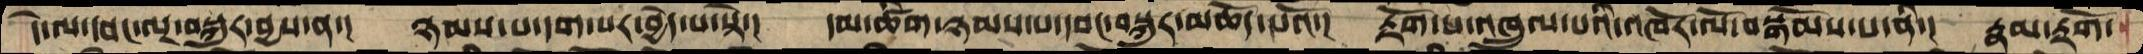དེ་ལ་དབང་ལྔ་བསྐུར་བྱས་ན་།  ཉམས་པ་དག་པར་བྱེད་པ་སྟེ་།  དམ་ཚིག་ཉམས་པ་དབང་བསྐུར་མཆོད་པའོ་།  རྟོག་པ་འཁྲུལ་པའི་འཁོར་ལོ་བསྒོམས་པ་ནི་།  རྣམ་རྟོག་
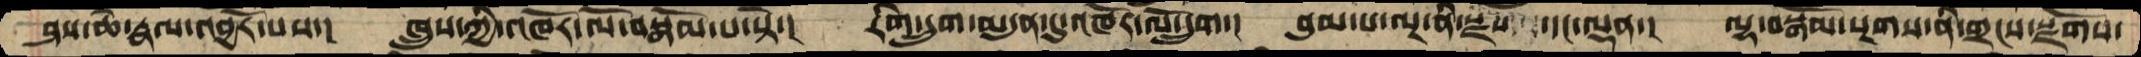ཤས་ཆེ་རྣལ་འབྱོར་པས་།  ཁྲུས་ཀྱི་འཁོར་ལོ་བསྒོམ་པ་སྟེ་།  རིག་དྲུག་མདུན་དུ་འཁོར་ལོ་དྲུག་།  བུམ་པ་ལྔ་ནི་སྫས  ་དང་ལྡན་།  ལྷ་བསྒོམ་སྔགས་ནི་གྲངས་སྫོགས་
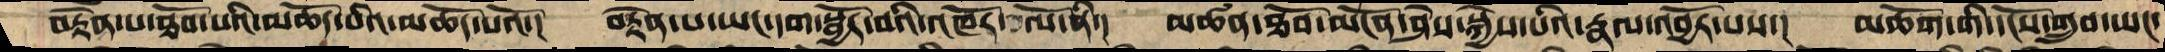བརྟེན་པ་ཐོབ་པའི་མཆོད་པའི་མཆོད་པའོ་།  བརྟེན་པ་ཡང་དག་སྦྱོར་བའི་འཁོར་ ལོ་ནི་།  མཚན་ཐོབ་མངོན་ཤེས་སྐྱེས་པའི་རྣལ་འབྱོར་པས་།  མཆོག་གི་དངོས་གྲུབ་ཡང་
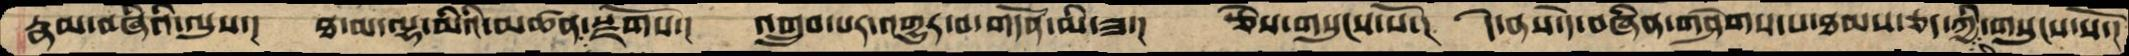རྣམ་བཞིའི་ལུས་།  ཐ་མ་ལྷ་མིའི་མཚན་སྫོགས་།  འགྲུབ་པར་འགྱུར་བ་གདོན་མི་ཟ་།  ཅེས་གསུངས་སོ་།  དེ་ནས་དེ་བཞིན་གཤེགས་པ་ཐམས་ཅད་ཀྱི་གསུངས་སོ་།
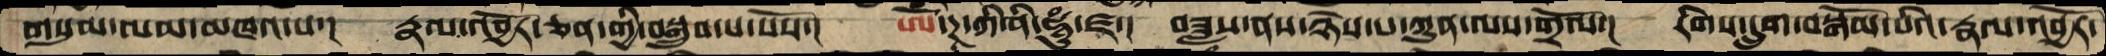གསུམ་ལམ་མཁའ་པ་།  རྣལ་འབྱོར་ཅན་གྱི་བསྒྲུབ་པ་པོས་།  ཨོཾ་ཌཱ་ཀི་ནི་ཧཱུཾ་ཛ་།  བཟླས་ནས་ཉེས་པ་ཀུན་ལས་གྲོལ་།  རིགས་དྲུག་བསྒོམ་པའི་རྣལ་འབྱོར་
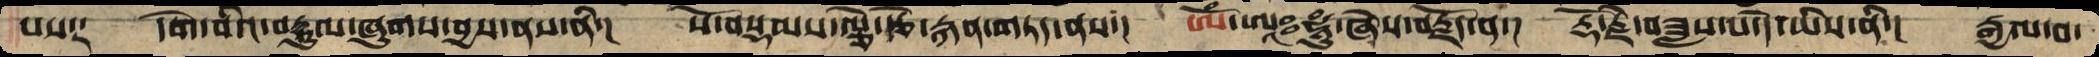པས༑  དགེ་བའི་བརྡུལ་ཞུགས་བྱས་ནས་ནི་།  སོ་བསྡམས་ལྕེ་རྩེ་རྐན་གཏད་ནས་།  ཨོཾ་ཨཱཿཧཱུཾ་ཞེས་བརྗོད་ན་།  རྡོ་རྗེ་བཟླས་པ་དེ་ཡིས་ནི་།  རྒྱལ་བ་
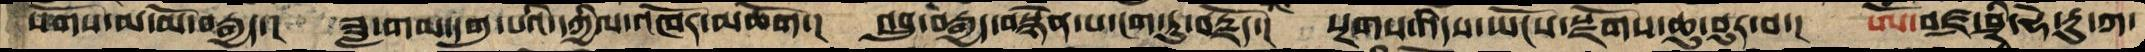སོགས་མ་མོ་བརྒྱད་།  ཟླ་གམ་དགུ་པའི་དཀྱིལ་འཁོར་མཆོག་།  འབྲུ་བརྒྱད་བསྙེན་པ་ངག་ཏུ་བརྗོད་།  སྔགས་འདིས་ཡོངས་སྫོགས་ཆུ་བུར་བ་།  ཨོཾ་བཛྲ་ཤྲི་ཧེ་རུ་ཀ་
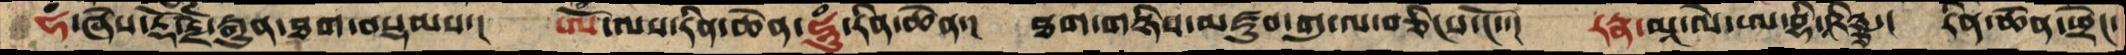ཧཾ་ཞེས་རྡོ་རྗེ་རྒྱུན་ཐག་བསྡམས་།  ཨོཾ་ལས་རིན་ཆེན་ཧཱུཾ་རིན་ཆེན་།  ཐག་གཉིས་མཛུབ་གུ་ལ་བཅིངས་ངོ་་།  རཏྣ་མཱ་ལེ་ཨ་བྷི་ཥཱིཉྩ་།  རིན་ཆེན་ཕྲེང་
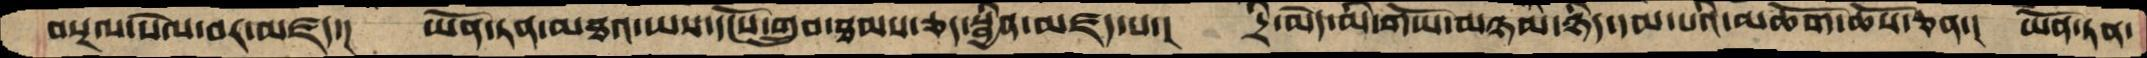བསྔལ་སེལ་བར་མཛད་།  ཡོན་ཏན་མཐའ་ཡས་དངོས་གྲུབ་ཐམས་ཅད་སྦྱིན་མཛད་པ་།  དྲི་མེད་མི་གཡོ་མཉམ་ཉིད་དམ་པའི་མཆོག་ཆོས་ཅན་།  ཡོན་ཏན་
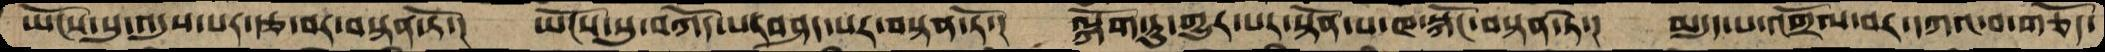ཡོངས་སུ་འདུས་པར་རྩ་བར་བསྟན་ཏོ་།  ཡོངས་སུ་བཀོད་པརབཤད་པར་བསྟན་ཏོ་།  ལྐོག་ཏུ་གྱུར་པར་སྟོན་པ་ཁ་སྐོང་བསྟན་ཏེ་།  མདུད་པ་འགྲོལ་བར་དཀའ་བ་གཅོད་
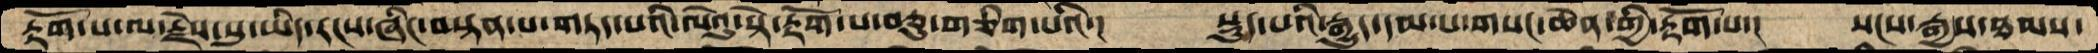རྟོག་པ་ལ་རྗེས་སུ་ཡིད་རངས་ཞིང་བསྟན་པ་གཏད་པའི་ལེའུ་སྟེ་རྟོག་པ་བཅུ་གཅིག་པའི་།    སྡུད་པའི་རྒྱུད་དམ་པ་གསང་ཆེན་གྱི་རྟོག་པ་།  སངས་རྒྱས་ཐམས་
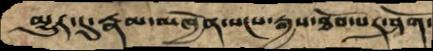མྱུར་དུ་རྣམ་མཁྱེན་སངས་རྒྱས་ཐོབ་པར་ཤོག་
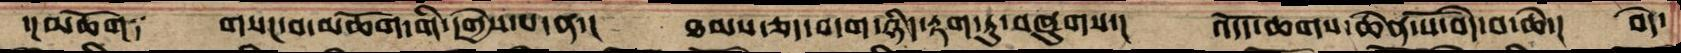་།མཆོག༑  གསང་བ་མཆོག་གི་དགྱེས་པ་ན་།  ཐམས་ཅད་བདག་ཉིད་རྟག་ཏུ་བཞུགས་།  འདོད་ཆགས་ཆེན་པོ་བདེ་བ་ཆེ་།   བདེ་
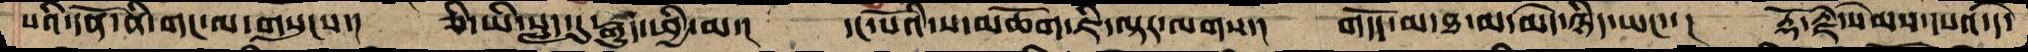པའི་དོན་ནི་གང་ལ་གསུངས་།  ཅི་ཡི་སླད་དུ་རྒྱུད་ཕྱི་མ་།  དང་པོའི་ས་མཆོག་ཇི་ལྟར་ལགས་།  གདོད་མ་ཐ་མ་མེད་ཉིད་ཡང་་།  རྡོ་རྗེ་སེམས་དཔའ་དེ་
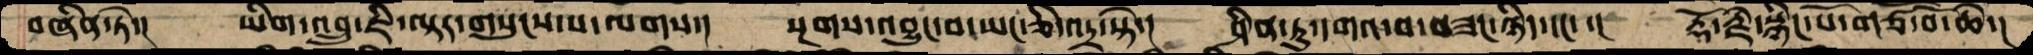བཞིན་ཏེ་།  ཡིག་འབྲུ་ཇི་ལྟར་གསུངས་པ་ལགས་།  སྔགས་འབྱུང་བ་ཡང་ཅི་འདྲ་སྟེ་།  ཤིན་ཏུ་དགའ་བ་བཟང་ཉིད་དང་།  རྡོ་རྗེ་སྙིང་པོ་གཙོ་བོ་ཆེ་།
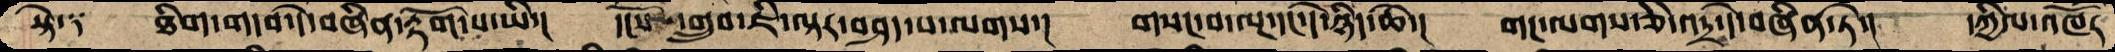སྟེ༑  ཐིག་གདབ་དེ་བཞིན་རྟོག་པ་ཡི་།  དངོས་གྲུབ་ཇི་ལྟར་བཤད་པ་ལགས་།  གསང་བ་ལྔ་དང་དེ་ཉིད་ཆེ་།  གང་ལགས་ཅི་འདྲ་དེ་བཞིན་ཏེ་།  དཀྱིལ་འཁོར་
